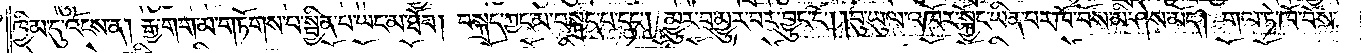ཁྱིམ་དུ་འོངས་ན། རྒྱ་གག་མ་གཏོགས་པ་སྦྱིན་པ་ཡང་མ་ཐོབ། བསྐྲད་ཀྱང་མ་བསྐྲད་པ་དང༌། མྱུར་བ་མྱུར་བར་བྱུང་ངོ༌། །བུ་ཡུལ་འཁོར་སྐྱོང་ཡིན་པར་ཁོ་བོས་མི་ཤེས་མོད། གལ་ཏེ་ཁོ་བོས་
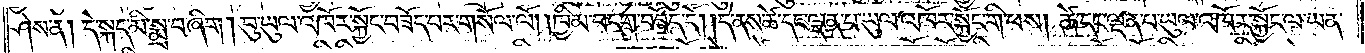ཤེས་ན། དེ་སྐད་མི་སྨྲ་བ་ཞིག །བུ་ཡུལ་འཁོར་སྐྱོང་བཟོད་པར་གསོལ་ལོ། །ཁྱིམ་བདག་བཟོད་དོ། །དེ་ནས་ཚེ་དང་ལྡན་པ་ཡུལ་འཁོར་སྐྱོང་གི་ཕས། ཚེ་དང་ལྡན་པ་ཡུལ་འཁོར་སྐྱོང་ལ་ཡན་
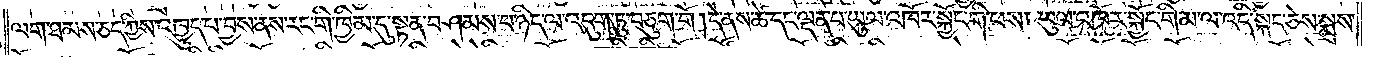ལག་ཐམས་ཅད་ཀྱིས་འཁྱུད་པ་བྱས་ནས་རང་གི་ཁྱིམ་དུ་སྟན་བཤམས་པ་ཉིད་ལ་འདུག་ཏུ་བཅུག་གོ །དེ་ནས་ཚེ་དང་ལྡན་པ་ཡུལ་འཁོར་སྐྱོང་གི་ཕས། ཡུལ་འཁོར་སྐྱོང་གི་མ་ལ་འདི་སྐད་ཅེས་སྨྲས་
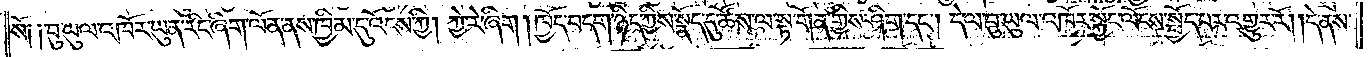སོ༑ ༑བུ་ཡུལ་འཁོར་ཡུན་རིང་ཞིག་ལོན་ནས་ཁྱིམ་དུ་འོངས་ཀྱི། ཀྱེ་རེ་ཞིག །ཁྱོད་བདག་ཉིད་ཀྱིས་སྣོད་དུ་ཚོས་ལ་སྟ་གོན་གྱིས་ཤིག་དང༌། དེ་ལ་བུ་ཡུལ་འཁོར་སྐྱོང་ལོངས་སྤྱོད་བར་འགྱུར་རོ། །དེ་ནས་
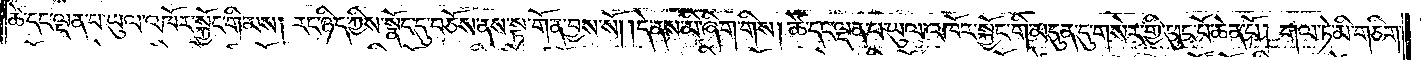ཚེ་དང་ལྡན་པ་ཡུལ་འཁོར་སྐྱོང་གི་མས། རང་ཉིད་ཀྱིས་སྣོད་དུ་བཅོས་ནས་སྟ་གོན་བྱས་སོ། །དེ་ནས་མི་ཞིག་གིས། ཚེ་དང་ལྡན་པ་ཡུལ་འཁོར་སྐྱོང་གི་མདུན་དུ་གསེར་གྱི་ཕུང་པོ་ཆེན་པོ། གལ་ཏེ་མི་གཅིག་
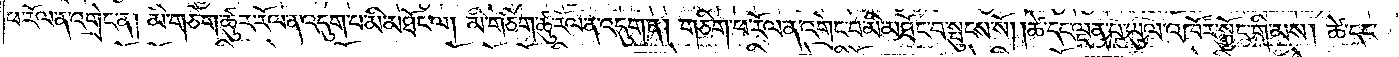ཕ་རོལ་ན་འགྲེང་ན། མི་གཅིག་ཚུར་རོལ་ན་འདུག་པ་མི་མཐོང་ལ། མི་གཅིག་ཚུ་རོལ་ན་འདུག་ན། གཅིག་ཕ་རོལ་ན་འགྲེང་བ་མི་མཐོང་བ་སྤུངས་སོ། །ཚེ་དང་ལྡན་པ་ཡུལ་འཁོར་སྐྱོང་གི་མས། ཚེ་དང་
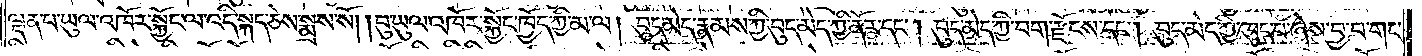ལྡན་པ་ཡུལ་འཁོར་སྐྱོང་ལ་འདི་སྐད་ཅེས་སྨྲས་སོ། །བུ་ཡུལ་འཁོར་སྐྱོང་ཁྱོད་ཀྱི་མ་ལ། བུད་མེད་རྣམས་ཀྱི་བུད་མེད་ཀྱི་ནོར་དང༌། བུད་མེད་ཀྱི་བག་རྫོངས་དང༌། བུད་མེད་ཀྱི་ཁུད་པ་ཞེས་བྱ་བ་གང་
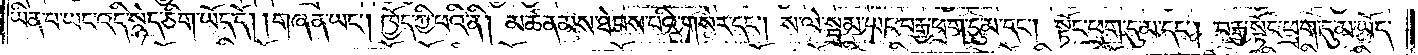ཡིན་པ་ཡང་འདི་སྙེད་ཅིག་ཡོད་དོ། །གཞན་ཡང༌། ཁྱོད་ཀྱི་ཕའི་ནི། མཚན་མས་ཐེབས་པའི་གསེར་དང༌། ས་ལེ་སྦྲམ་ཡང་བརྒྱ་ཕྲག་དུ་མ་དང༌། སྟོང་ཕྲག་དུ་མ་དང༌། བརྒྱ་སྟོང་ཕྲག་དུ་མ་ཡོད་
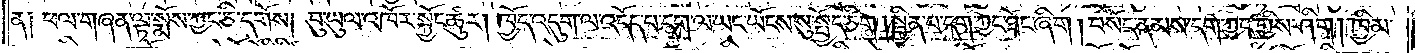ན༑ ཕལ་གཞན་ལྟ་སྨོས་ཀྱང་ཅི་དགོས། བུ་ཡུལ་འཁོར་སྐྱོང་ཚུར། ཁྱོད་འདུག་ལ་འདོད་པ་དག་ལ་ཡང་ཡོངས་སུ་སྤྱོད་ཅིག །སྦྱིན་པ་དག་ཀྱང་ཐོང་ཞིག །བསོད་ནམས་དག་ཀྱང་གྱིས་ཤིག །ཁྱིམ་
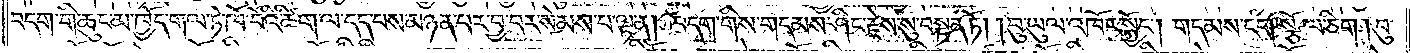བདག་གི་ཆུང་མ་ཁྱོད་གལ་ཏེ་ཁོ་བོའི་ཚིག་ལ་དད་པས་མཉན་པར་བྱ་བར་སེམས་པ་ལྟ་ན། བདག་གིས་གདམས་ཤིང་རྗེས་སུ་བསྟན་ཏོ། །བུ་ཡུལ་འཁོར་སྐྱོང༌། གདམས་ངག་སྩོལ་ཅིག །བུ་
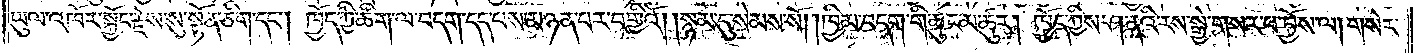ཡུལ་འཁོར་སྐྱོང་རྗེས་སུ་སྟོན་ཅིག་དང༌། ཁྱོད་ཀྱི་ཚིག་ལ་བདག་དད་པས་མཉན་པར་བགྱིའོ། །སྙམ་དུ་སེམས་སོ། །ཁྱིམ་བདག་གི་ཆུང་མ་ཚུར། ཁྱོད་ཀྱིས་ཤ་ནའི་རས་སྒྱེ་གསར་པ་བྱོས་ལ། གསེར་
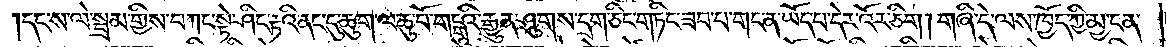དང་ས་ལེ་སྦྲམ་གྱིས་བཀང་སྟེ་ཤིང་རྟའི་ནང་དུ་ཆུག་ལ་ཆུ་བོ་གངྒཱའི་རྒྱུན་ཤུགས་དྲག་ཅིང་གཏིང་ཟབ་པ་གང་ན་ཡོད་པ་དེར་འོར་ཅིག། གཞི་དེ་ལས་ཁྱོད་ཀྱི་མྱ་ངན་
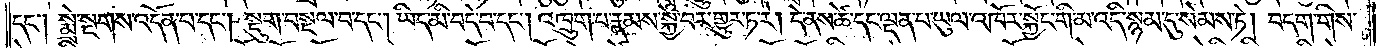དང༌། སྨྲེ་སྔགས་འདོན་པ་དང༌། སྡུག་བསྔལ་བ་དང༌། ཡིད་མི་བདེ་བ་དང༌། འཁྲུག་པ་རྣམས་སྐྱེ་བར་གྱུར་ཏ་རེ། དེ་ནས་ཚེ་དང་ལྡན་པ་ཡུལ་འཁོར་སྐྱོང་གི་མ་འདི་སྙམ་དུ་སེམས་ཏེ། བདག་གིས་
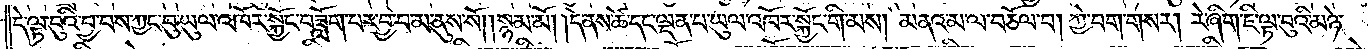དེ་ལྟ་བུའི་བྱ་བས་ཀྱང་བུ་ཡུལ་འཁོར་སྐྱོང་བཟློག་པར་བྱ་བ་མ་ནུས་སོ། །སྙམ་མོ། །དེ་ནས་ཚེ་དང་ལྡན་པ་ཡུལ་འཁོར་སྐྱོང་གི་མས། མནའ་མ་ལ་བཅོལ་བ། ཀྱེ་བག་གསར། རེ་ཞིག་ཇི་ལྟ་བུའི་མཉེ་
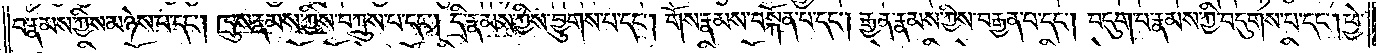བ་རྣམས་ཀྱིས་མཉེས་པ་དང༌། ཁྲུས་རྣམས་ཀྱིས་བཀྲུས་པ་དང༌། དྲི་རྣམས་ཀྱིས་བྱུགས་པ་དང༌། གོས་རྣམས་བསྐོན་པ་དང༌། རྒྱན་རྣམས་ཀྱིས་བརྒྱན་པ་དང༌། བདུག་པ་རྣམས་ཀྱི་བདུགས་པ་དང༌། ཕྱེ་
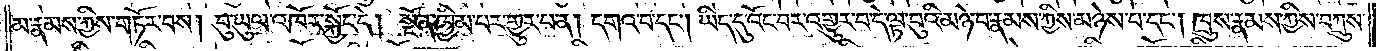མ་རྣམས་ཀྱིས་གཏོར་བས། བུ་ཡུལ་འཁོར་སྐྱོང་དེ། སྔོན་ཁྱིམ་པར་གྱུར་པ་ན། དགའ་བ་དང༌། ཡིད་དུ་འོང་བར་འགྱུར་བ་དེ་ལྟ་བུའི་མཉེ་བ་རྣམས་ཀྱིས་མཉེས་པ་དང༌། ཁྲུས་རྣམས་ཀྱིས་བཀྲུས་
